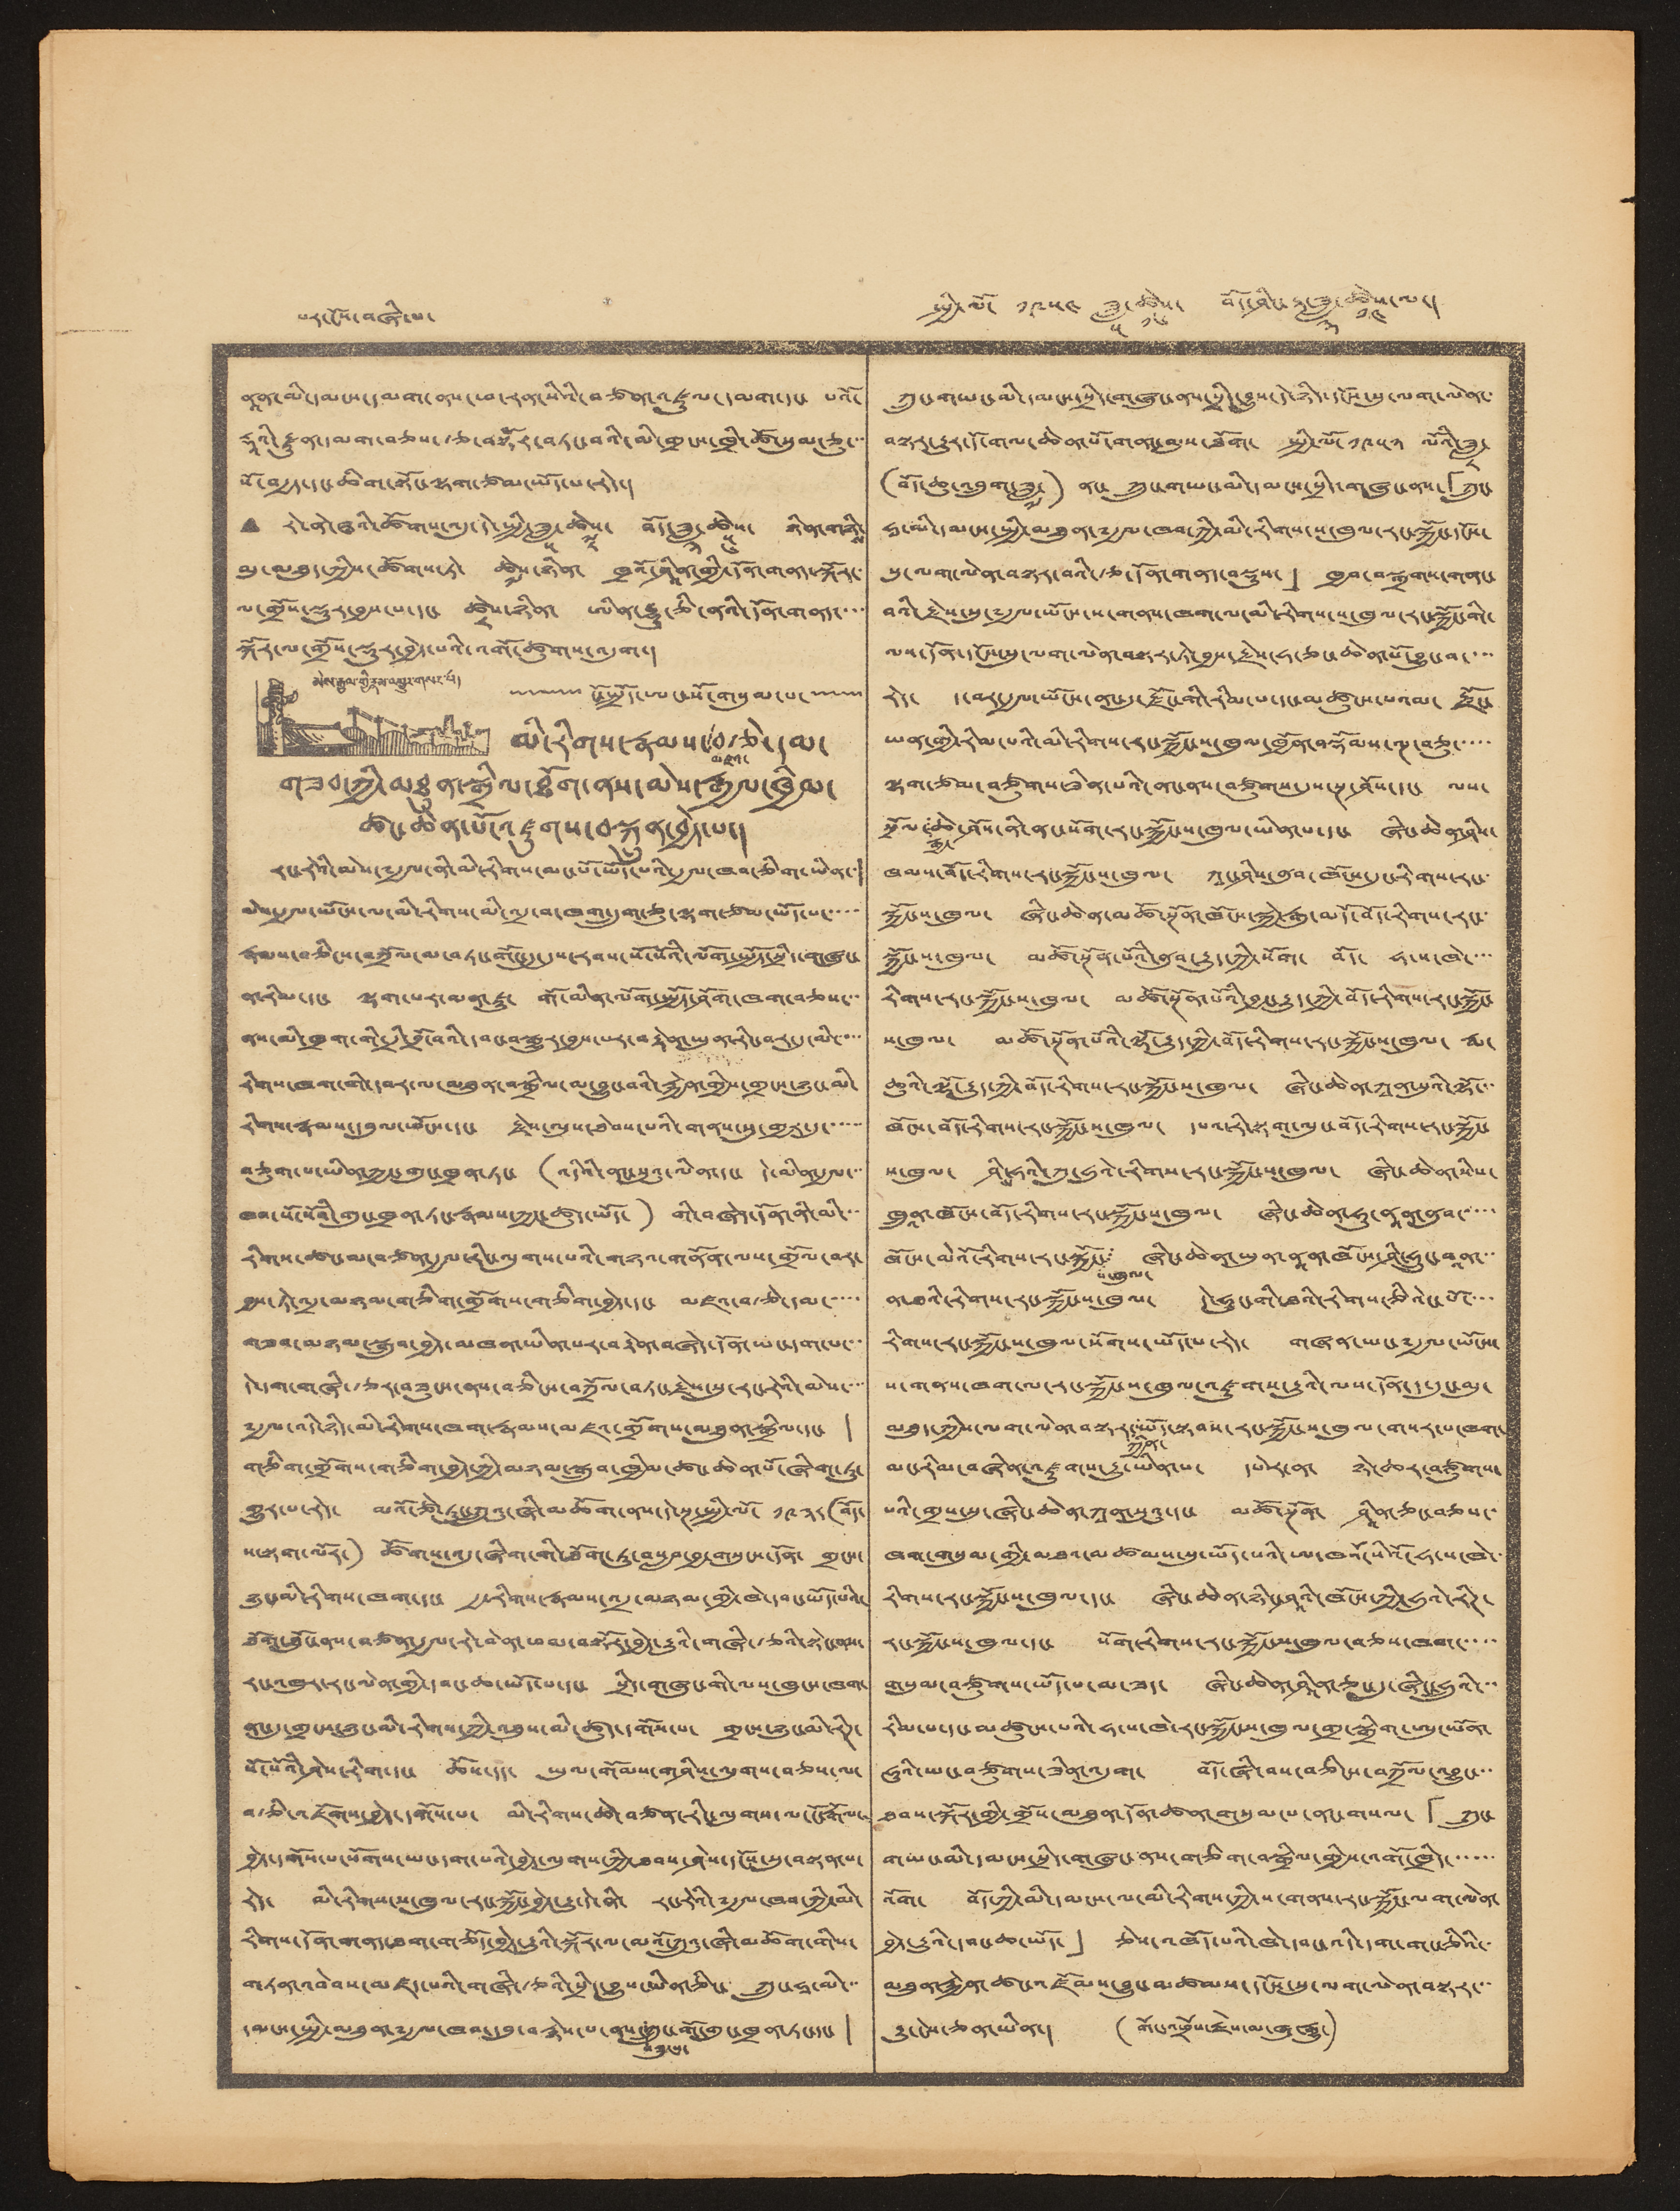པར་ངོས་བཞི་པ་ སྤྱི་ལོ་ ༡༩༥༤ ཟླ་
༥
ཚེས་
༡༦
བོད་ཤིང་རྟ་ཟླ་
༣
ཚེས་
༡༤
ལ་།
ནཱན་མི་དམངས་དམག་ནས་ཕ་རན་སིའི་བཙན་འཛུལ་དམག་དང་ པའོ་
རྡཱའི་རྫུན་དམག་བཅས་རྩ་བསྟོར་བཏང་བའི་མི་གྲངས་ཁྲི་ཚོ་སུམ་ཅུ་་་
སོ་བརྒྱད་དང་ཆིག་སྟོང་ལྷག་ཙམ་ཡོད་པ་རེད་།
• རེ་ནེ་ཝའི་ཚོགས་འདུ་དེ་སྤྱི་ཟླ་
༥
ཚེས་
༧
༨
བོད་ཟླ་
༣
ཚེས་
༥
༦
ཉིན་གཉི་
ས
མུ་མཐུད་ཀྱིས་ཚོགས་ཏེ་ ཚེས་
༧
ཉིན་ ཁྲའོ་ཤཱིན་གྱི་དོན་གནད་སྐོར་
ལ་གྲོས་སྡུར་བྱས་པ་དང་ ཚེས་
༨
ཉིན་ ཨིན་རྷུ་ཅི་ནའི་དོན་གནད་་་་
སྐོར་ལ་གྲོས་སྡུར་བྱེད་པའི་འགོ་ཚུགས་འདུག་།
ངོ་སྤྲོད་ཨང་སོ་གསུམ་པ་
མེས་རྒྱལ་གྱི་རྣམ་འགྱུར་གསར་པ།
མི་རིགས་རྣམས་
མཛའ་
བརྩེ་དམ་
གཟབ་ཀྱི་མཐུན་སྒྲིལ་ཐོག་ནས་མེས་རྒྱལ་ཁྱིམ་
ཚང་ཆེན་པོ་འཛུགས་བསྐྲུན་བྱེད་པ་།
རང་རེའི་མེས་༸རྒྱལ་ནི་མི་རིགས་མང་པོ་ཡོད་པའི་རྒྱལ་ཁབ་ཅིག་ཡིན་་།
མེས་རྒྱལ་ཡོངས་ལ་མི་རིགས་མི་འདྲ་བ་ཁག་དྲུག་ཅུ་ལྷག་ཙམ་ཡོད་པ་་་་་
རྣམས་བཅིངས་བཀྲོལ་མ་བཏང་གོང་དུ་དུས་རབས་སོ་སོའི་ལོག་སྤྱོད་སྲིད་གཞུང་
ན་རིམ་དང་ ལྷག་པར་མན་ཇུ་ གོ་མིན་ལོག་སྤྱོད་ཤོག་ཁག་བཅས་་་
ནས་མི་ཁྲག་གི་དྲི་བྲོ་བའི་དབང་བསྒྱུར་བྱས་པར་བརྟེན་ཡུན་རིང་བར་དུ་མི་་་་་
རིགས་ཁག་གི་དབར་ལ་མཐུན་བསྒྲིལ་མ་བྱུང་བའི་རྐྱེན་གྱིས་གྲངས་ཉུང་མི་
རིགས་རྣམས་དབུལ་ཕོངས་དང་ རྗེས་ལུས་ཐེབས་པའི་གནས་སུ་གྱར་དུ་་་་་་
བཅུག་པ་ཡིན་ཀྱང་གུང་ཁྲན་ཏང་ (འདིའི་ནང་སུའུ་ལིན་དང་ དེ་མིན་རྒྱལ་་་
ཁབ་སོ་སོའི་གུང་ཁྲན་ཏང་རྣམས་ཀྱང་ཚུད་ཡོད་) གི་བཞེད་དོན་ནི་མི་་་
རིགས་ཚང་མ་བཙན་རྒྱལ་རིང་ལུགས་པའི་གཉའ་གནོན་ལས་གྲོལ་བར་
བྱས་ཏེ་འདྲ་མཉམ་གཅིག་གྲོགས་གཅིག་བྱེད་དང་ མཛའ་བརྩེ་དམ་་་་་
གཟབ་མཉམ་སྒྲུབ་བྱེད་མཁན་ཡིན་པར་བརྟེན་བཞེད་དོན་ཡང་དག་པ་་་
དེ་དག་གཞི་རྩར་བཟུངས་ནས་བཅིངས་བཀྲོལ་བཏང་རྗེས་སུ་རང་རེའི་མེས་་་་
༸རྒྱལ་འདི་ཉིད་མི་རིགས་ཁག་རྣམས་མཛའ་གྲོགས་མཐུན་སྒྲིལ་དང་ །
གཅིག་གྲོགས་གཅིག་བྱེད་ཀྱི་མཉམ་སྒྲུབ་ཁྱིམ་ཚང་ཆེན་པོ་ཞིག་ཏུ་
གྱུར་པ་རེད་ མའོ་ཙེ་ཏུང་ཀྲུའུ་ཞི་མཆོག་ནས་དེ་སྔ་སྤྱི་ལོ་ ༡༩༣༨ (བོད་
ས་སྟག་ལོར་) ཚོགས་འདུ་ཞིག་གི་ཐོག་ཏུ་བསལབ་བྱ་གསུངས་དོན་ གྲངས་
ཉུང་མི་རིགས་ཁག་དང་ རྒྱ་རིགས་རྣམས་འདྲ་མཉམ་གྱི་ཁེ་དབང་ཡོད་པའི་
ཐོག་ཐོུང་ནས་བཙན་རྒྱལ་རེ་བེན་ཕམ་བསྟོར་བྱེད་རྒྱུའི་གཞི་རྩའི་སྟེང་ནས་
རང་འཁུར་རང་ལེན་གྱི་དབང་ཆ་ཡོད་པ་དང་ སྲིད་གཞུང་གི་ལས་ཁུངས་ཁག་
ནང་དུ་གྲངས་ཉུང་མི་རིགས་ཀྱི་འཐུས་མི་ཚུད་དགོས་པ་ གྲངས་ཉུང་མི་རིཊ་
སོ་སོའི་ཤེས་རིག་དང་ ཆོས་དང་ ཡུལ་གོམས་གཤིས་ལུགས་བཅས་ལ་
བརྩི་འཇོགས་བྱེད་དགོས་པ་ མི་རིགས་ཆེ་བཙན་རིང་ལུགས་ལ་ངོ་རྒོལ་
བྱེད་དགོས་པ་སོགས་ཡང་དག་པའི་བྱེད་ལུགས་ཀྱི་ཐབས་ཤེས་དངོས་སུ་བསྟན་པ་
རེད་ མི་རིགས་ས་ཁུལ་རང་སྐྱོང་བྱེད་རྒྱུ་དེ་ནི་ རང་རེའི་༸རྒྱལ་ཁབ་ཀྱི་མི་
རིགས་དོན་གནད་ཐག་གཅོད་བྱེད་རྒྱུའི་སྐོར་ལ་མའོ་ཀྲུའུ་ཞི་མཆོག་གིས་
གཏན་འབེབས་མཛད་པའི་གཞི་རྩའི་སྲིད་བྱུས་ཡིན་ཅིང་ ཀྲུང་ཧྭ་མི་་་
དམངས་སྤྱི་མཐུན་༸རྒྱལ་ཁབ་དབུ་བརྙེས་པ་ནས་
བཟུངས་
ཀྲུང་གོ་གུང་ཁྲན་ཏང་དང་ །
ཀྲུང་གཡང་མི་དམངས་སྲིད་གཞུང་ནས་སྲིད་བྱུས་དེ་ཉིད་དངོས་སུ་ལག་ལེན་་
བསྟར་རྒྱུར་དོ་གལ་ཆེན་པོ་གནང་མུས་ཐོག་ སྤྱི་ལོ་ ༡༩༥༢ ལོའི་ཟླ་
༨
(བོད་ཆུ་འབྲུག་ཟླ་)
༧
ནང་ ཀྲུང་གཡང་མི་དམངས་སྲིད་གཞུང་ནས་「ཀྲུང་
ཧྭ་མི་དམངས་སྤྱི་མཐུན་༸རྒྱལ་ཁབ་ཀྱི་མི་རིགས་ས་ཁུལ་རང་སྐྱོང་དངོས་
སུ་ལག་ལེན་བསྟར་བའི་རྩ་དོན་གནད་བསྡུས་」 ཁྱབ་བསྒྲགས་གནང་
བའི་རྗེས་སུ་༸རྒྱལ་ཡོངས་ས་གནས་ཁག་ལ་མི་རིགས་ས་ཁུལ་རང་སྐྱོང་གི་
ལས་དོན་དངོས་སུ་ལག་ལེན་བསྟར་ཏེ་བྱས་རྗེས་ཧ་ཅང་ཆེན་པོ་བྱུང་བ་་་་
རེད་ ད་བར་རྒྱལ་ཡོངས་ནང་དུ་རྫོང་གི་རིམ་པ་དང་མཚུངས་པའམ་ རྫོང་
ཡན་གྱི་རིམ་པའི་མི་རིགས་རང་སྐྱོང་ས་ཁུལ་ཁྱོན་བསྡོམས་ལྔ་བཅུ་་་་་
ལྷག་ཙམ་བཙུགས་ཟིན་པའི་ནང་ནས་བཙུགས་དུས་སྔ་ཤོས་དང་ ལས་
སྲོལ་
རྒྱ་
ཆེ་ཤོས་ནི་ནང་སོག་རང་སྐྱོང་ས་ཁུལ་ཡིན་པ་དང་ ཞིང་ཆེན་ཤིས་
ཁམས་བོད་རིགས་རང་སྐྱོང་ས་ཁུལ་ ཀཱང་ཤིས་ནུབ་ཁོངས་དུང་རིགས་རང་་
སྐྱོང་ས་ཁུལ་ ཞིང་ཆེན་མཚོ་སྔོན་ཁོངས་སྐྱེ་རྒུ་མདོ་བོད་རིགས་རང་་
སྐྱོང་ས་ཁུལ་ མཚོ་སྔོན་པོའི་ནུབ་རྒྱུད་ཀྱི་སོག་ བོད་ ཧ་ས་ཁེ་་་་
རིགས་རང་སྐྱོང་ས་ཁུལ་ མཚོ་སྔོན་པོའི་བྱང་རྒྱུད་ཀྱི་བོད་རིགས་རང་སྐྱོང་
ས་ཁུལ་ མཚོ་སྔོན་པོའི་ལྷོ་རྒྱུད་ཀྱི་བོད་རིགས་རང་སྐྱོང་ས་ཁུལ་ རྨ་
ཆུའི་ལྷོ་རྒྱུད་ཀྱི་བོད་རིགས་རང་སྐྱོང་ས་ཁུལ་ ཞིང་ཆེན་ཀཱན་སུའི་ལྷོ་་་
ཁོངས་བོད་རིགས་རང་སྐྱོང་ས་ཁུལ་ དཔའ་རི་སྟག་ལུང་བོད་རིགས་རང་སྐྱོང་
ས་ཁུལ་ ཤཱིན་ཧའི་ཀུ་ཧུའེ་རིགས་རང་སྐྱོང་ས་ཁུལ་ ཞིང་ཆེན་སིས་
ཁྲུནཱ་ཁོངས་བོད་རིགས་རང་སྐྱོང་ས་ཁུལ་ ཞིང་ཆེན་ཧུ་ནཱན་ནུབ་་་་་
ཁོངས་མེའོ་རིགས་རང་སྐྱོང་
ས་ཁུལ་
ཞིང་ཆེན་ཡུན་ནཱན་ཁོངས་ཤིང་ཧྲུང་བཱན་་་
ན་ཐའི་རིགས་རང་སྐྱོང་ས་ཁུལ་ དེ་ཧུང་གི་ཐའི་རིགས་ཅིའེང་པོ་་་་
རིགས་རང་སྐྱོང་ས་ཁུལ་སོགས་ཡོད་པ་རེད་ གཞན་ཡང་༸རྒྱལ་ཡོངས་
ས་གནས་ཁག་ལ་རང་སྐྱོང་ས་ཁུལ་འཛུགས་རྒྱུའི་ལས་དོན་ད་དུང་མུ་
མཐུད་ཀྱིས་ལག་ལེན་བསྟར་
ཀྱིན་
ཡོད་སྟབས་རང་སྐྱོང་ས་ཁུལ་གསར་པ་ཁག་
མང་རིམ་བཞིན་འཛུགས་རྒྱུ་ཡིན་པ་ དཔེར་ན་ ཉེ་ཆར་བཙུགས་
པའི་གྲས་སུ་ཞིང་ཆེན་ཀཱན་སུའུ་དང་ མཚོ་སྔོན་ ཤཱིན་ཅང་བཅས་་
ཁག་གསུམ་གྱི་མཐའ་མཚམས་སུ་ཡོད་པའི་ཨ་ཁའོ་སིའོ་ཧ་ས་ཁེ་
རིགས་རང་སྐྱོང་ས་ཁུལ་དང་ ཞིང་ཆེན་ཉིང་ཤཱའི་ཁོངས་ཀྱི་ཧུའེ་རིཊ་
རང་སྐྱོང་ས་ཁུལ་དང་ སོག་རིགས་རང་སྐྱོང་ས་ཁུལ་བཅས་ཁག་་་་་
གསུམ་བཙུགས་ཡོད་པ་མ་ཟད་ ཞིང་ཆེན་ཤཱིན་ཅང་དུ་ཞིང་ཧྲུའི་་་
རིམ་པ་དང་མཚུངས་པའི་ཧ་ས་ཁེ་རང་སྐྱོང་ས་ཁུལ་གྲ་སྒྲིག་ཨུ་ཡོན་
ཧུའི་ཡང་བཙུགས་ཟིན་འདུག་ བོད་ཞི་བས་བཅིངས་བཀྲོལ་འབྱུང་་་
ཐབས་སྐོར་གྱི་གྲོས་མཐུན་དོན་ཚན་གསུམ་པ་ནང་གསལ་ 「ཀྲུང་
གཡང་མི་དམངས་སྲིད་གཞུང་ནས་གཅིག་བསྒྲིལ་གྱིས་འགོ་ཁྲིད་་་་་་
འོག་ བོད་ཀྱི་མི་དམངས་ལ་མི་རིགས་ཀྱི་ས་གནས་རང་སྐྱོང་ལག་ལེན་
བྱེད་རྒྱུའི་དབང་ཆ་ཡོད་」 ཅེས་འཁོད་པའི་ཁེ་དབང་འདི་དག་གང་ཅིའི་་
མཐུན་རྐྱེན་ཚང་འཛོམས་བྱུང་མཚམས་དངོས་སུ་ལག་ལེན་བསྟར་་་
རྒྱུ་ངེས་ཅན་ཡིན་། (གོང་འཕྲོས་རྗེས་མ་ཞུ་རྒྱུ་)
